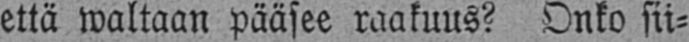että waltaan pääsee raakuus? Onko sii-
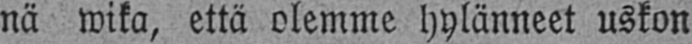nä wika, että olemme hylänneet uskon
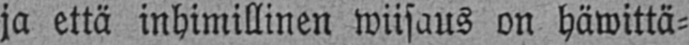ja että inhimillinen wiisaus on häwittä-
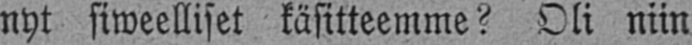nyt siweelliset käsitteemme? Oli niin
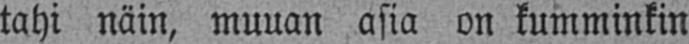tahi näin, muuan asia on kumminkin
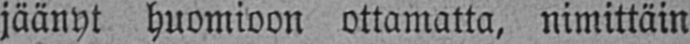jäänyt huomioon ottamatta, nimittäin
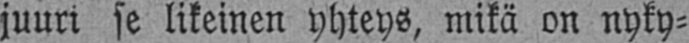juuri se likeinen yhteys, mikä on nyky-
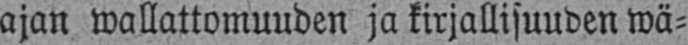ajan wallattomuuden ja kirjallisuuden wä-
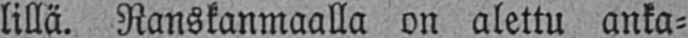lillä. Ranskanmaalla on alettu anka-
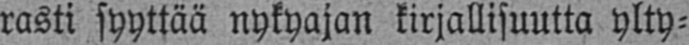rasti syyttää nykyajan kirjallisuutta ylty-
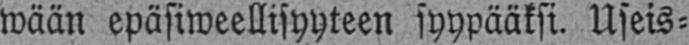wään epäsiweellisyyteen syypääksi. Useis-
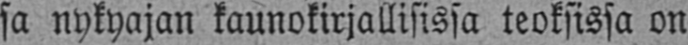sa nykyajan kaunokirjallisissa teoksissa on
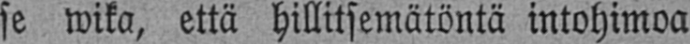se wika, että hillitsemätöntä intohimoa
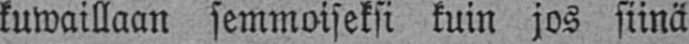kuwaillaan semmoiseksi kuin jos siinä
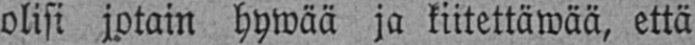olisi jotain hywää ja kiitettäwää, että
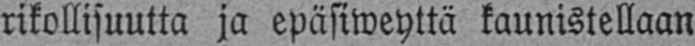rikollisuutta ja epäsiweyttä kaunistellaan
